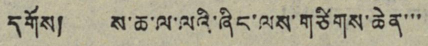དགོས། ས་ཆ་ལ་ལའི་ཞིང་ལས་གཙིགས་ཆེན་་་་
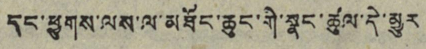དང་ཕྱུགས་ལས་ལ་མཐོང་ཆུང་གི་སྣང་ཚུལ་དེ་མྱུར
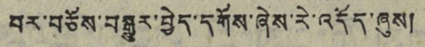པར་བཅོས་བསྒྱུར་བྱེད་དགོས་ཞེས་རེ་འདོད་ཞུས།
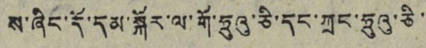ས་ཞིང་དོ་དམ་སྐོར་ལ་གོ་ཧྲུའུ་ཅི་དང་ཀྲུང་ཧྲུའུ་ཅི་
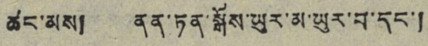ཚང་མས། ནན་ཏན་སྒོས་ཡུར་མ་ཡུར་བ་དང་།
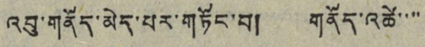འབུ་གནོད་མེད་པར་གཏོང་བ། གནོད་འཚེ་་་་
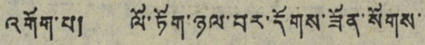འགོག་པ། ལོ་ཏོག་ཉལ་བར་དོགས་ཟོན་སོགས་
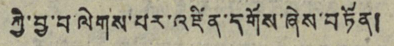ཀྱི་བྱ་བ་ལེགས་པར་འཛིན་དགོས་ཞེས་བཏོན།
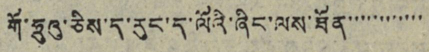གོ་ཧྲུའུ་ཅིས་ད་རུང་ད་ལོའི་ཞིང་ལས་ཐོན་་་་་་་་་་་་
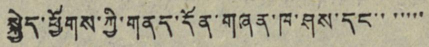སྐྱེད་ཕྱོགས་ཀྱི་གནད་དོན་གཞན་ཁ་ཤས་དང་་་་་་་
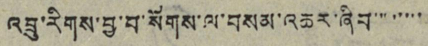འབྲུ་རིགས་བྱ་བ་སོགས་ལ་བསམ་འཆར་ཞིབ་་་་་་་་
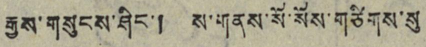རྒྱས་གསུངས་ཤིང་། ས་གནས་སོ་སོས་གཙིགས་སུ
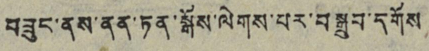བཟུང་ནས་ནན་ཏན་སྒོས་ལེགས་པར་བསྒྲུབ་དགོས
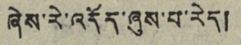ཞེས་རེ་འདོད་ཞུས་པ་རེད།
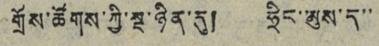གྲོས་ཚོགས་ཀྱི་སྔ་ཉིན་དུ། ཧྲིང་མུས་ད་་
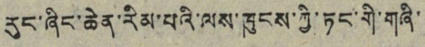རུང་ཞིང་ཆེན་རིམ་པའི་ལས་ཁུངས་ཀྱི་ཏང་གི་གཞི་
